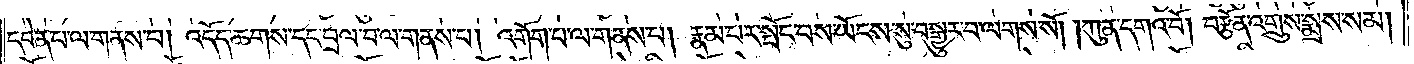དབེན་པ་ལ་གནས་པ། འདོད་ཆགས་དང་བྲལ་བ་ལ་གནས་པ། འགོག་པ་ལ་གནས་པ། རྣམ་པར་སྤོང་བས་ཡོངས་སུ་བསྒྱུར་བ་ལགས་སོ། །ཀུན་དགའ་བོ། བརྩོན་འགྲུས་སྨྲས་སམ།
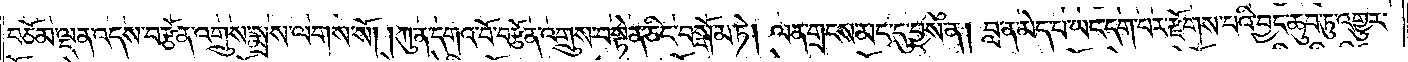བཅོམ་ལྡན་འདས་བརྩོན་འགྲུས་སྨྲས་ལགས་སོ། །ཀུན་དགའ་བོ་བརྩོན་འགྲུས་བསྟེན་ཅིང་བསྒོམ་ཏེ། ལན་གྲངས་མང་དུ་བྱས་ན། བླ་ན་མེད་པ་ཡང་དག་པར་རྫོགས་པའི་བྱང་ཆུབ་ཏུ་འགྱུར་
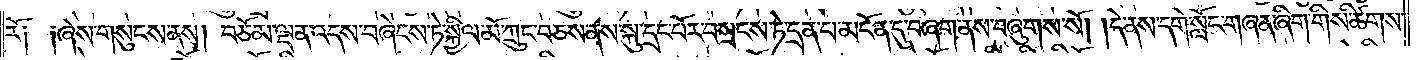རོ༑ ༑ཞེས་གསུངས་ནས། བཅོམ་ལྡན་འདས་བཞེངས་ཏེ་སྐྱིལ་མོ་ཀྲུང་བཅས་ནས་སྐུ་དྲང་པོར་བསྲངས་ཏེ་དྲན་པ་མངོན་དུ་བཞག་ནས་བཞུགས་སོ། །དེ་ནས་དགེ་སློང་གཞན་ཞིག་གིས་ཚིགས་
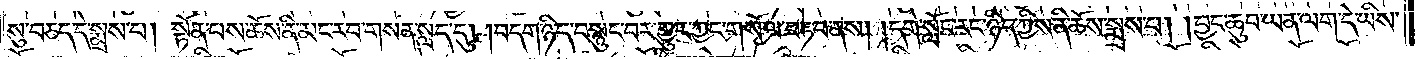སུ་བཅད་དེ་སྨྲས་པ། སྟོན་པས་ཆོས་ནི་མང་རབ་གསན་སླད་དུ། །བདག་ཉིད་བསྙུང་བར་གྱུར་ཀྱང་གསོལ་བཏབ་ནས། །དགེ་སློང་རང་ཉིད་ཀྱིས་ནི་ཆོས་སྨྲས་པ། །བྱང་ཆུབ་ཡན་ལག་དེ་ཡིས་
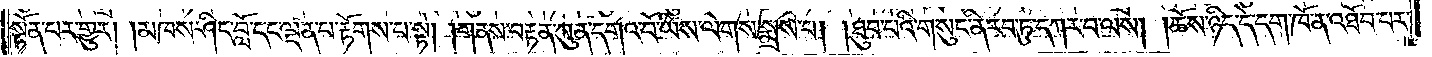སྟོན་པར་གྱུར། །མཁས་ཤིང་བློ་དང་ལྡན་པ་རྟོགས་པ་སྟེ། །གནས་བརྟན་ཀུན་དགའ་བོ་ཡིས་ལེགས་སྨྲས་པ། །ཐུབ་པའི་གསུང་ནི་རབ་ཏུ་དཀར་བ་ལས། །ཆོས་ཉིད་དེ་དག་ཁོ་ན་འཐོབ་པར་
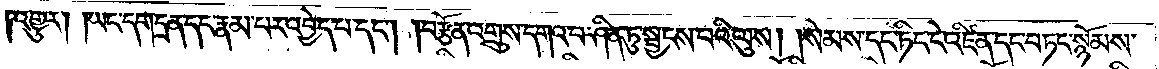འགྱུར། །ཡང་དག་དྲན་དང་རྣམ་པར་འབྱེད་པ་དང༌། །བརྩོན་འགྲུས་དགའ་བ་ཤིན་ཏུ་སྦྱངས་པའི་ལུས། །སེམས་དང་ཏིང་ངེ་འཛིན་དང་བཏང་སྙོམས་
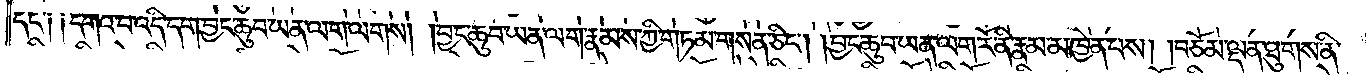དང་༑ ༑དགའ་བ་འདི་དག་བྱང་ཆུབ་ཡན་ལག་ལགས། །བྱང་ཆུབ་ཡན་ལག་རྣམས་ཀྱི་གཏམ་གསན་ཅིང༌། །བྱང་ཆུབ་ཡན་ལག་རོ་ནི་རྣམ་མཁྱེན་པས། །བཅོམ་ལྡན་ཐུགས་ནི་
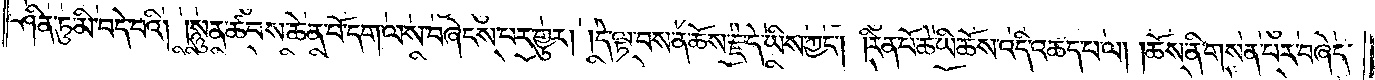ཤིན་ཏུ་མི་བདེ་བའི། །སྙུན་ཚབས་ཆེན་པོ་དག་ལས་བཞེངས་པར་གྱུར། །དེ་ལྟ་བས་ན་ཆོས་རྗེ་དེ་ཡིས་ཀྱང༌། །རིན་པོ་ཆེ་ཡི་ཆོས་འདི་འཆད་པ་ལ། །ཆོས་ནི་གསན་པར་བཞེད་
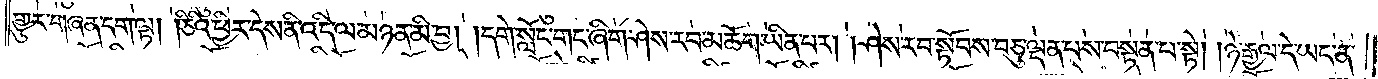གྱུར་གཞན་དག་ལྟ། །ཅིའི་ཕྱིར་དེས་ནི་འདི་ལ་མཉན་མི་བྱ། །དགེ་སློང་གང་ཞིག་ཤེས་རབ་མཆོག་ཡིན་པར། །ཤེས་རབ་སྟོབས་བཅུ་ལྡན་པས་བསྟན་པ་སྟེ། །ཉེ་རྒྱལ་དེ་ཡང་ན་
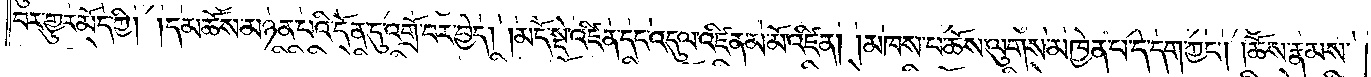བར་གྱུར་མོད་ཀྱི། །དམ་ཆོས་མཉན་པའི་དོན་དུ་འགྲོ་བར་བྱེད། །མདོ་སྡེ་འཛིན་དང་འདུལ་འཛིན་མ་མོ་འཛིན། །མཁས་པ་ཆོས་ལུགས་མཁྱེན་པ་དེ་དག་ཀྱང༌། །ཆོས་རྣམས་
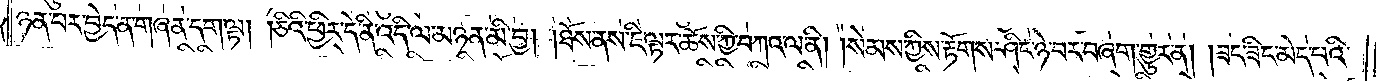ཉན་པར་བྱེད་ན་གཞན་དག་ལྟ། །ཅིའི་ཕྱིར་དེ་ནི་འདི་ལ་མཉན་མི་བྱ། །ཐོས་ནས་ཇི་ལྟར་ཆོས་ཀྱི་བཀའ་ལ་ནི། །སེམས་ཀྱིས་རྟོགས་ཤིང་ཉེ་བར་བཞག་གྱུར་ན། །ཟང་ཟིང་མེད་པའི་
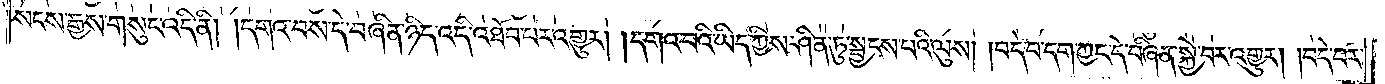སངས་རྒྱས་གསུང་འདི་ནི། །དགའ་བས་དེ་བཞིན་ཉིད་འདི་འཐོབ་པར་འགྱུར། །དགའ་བའི་ཡིད་ཀྱིས་ཤིན་ཏུ་སྦྱངས་པའི་ལུས། །བདེ་བ་དག་ཀྱང་དེ་བཞིན་སྐྱེ་བར་འགྱུར། །བདེ་བར་
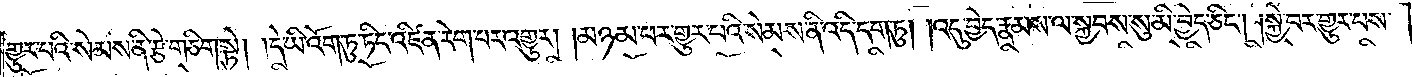གྱུར་པའི་སེམས་ནི་རྩེ་གཅིག་སྟེ། །དེ་ཡི་འོག་ཏུ་ཏིང་འཛིན་རེག་པར་འགྱུར། །མཉམ་པར་གྱུར་པའི་སེམས་ནི་འདི་དག་ཏུ། །འདུ་བྱེད་རྣམས་ལ་སྐྱབས་སུ་མི་བྱེད་ཅིང༌། །སྐྱེ་བར་གྱུར་པས་
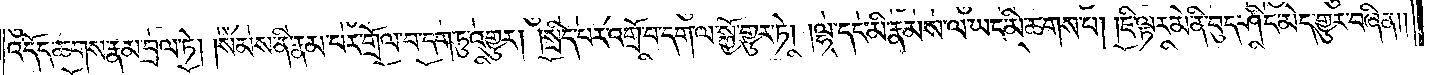འདོད་ཆགས་རྣམ་བྲལ་ཏེ། །སེམས་ནི་རྣམ་པར་གྲོལ་བ་དག་ཏུ་འགྱུར། །སྲིད་པར་འགྲོ་བ་དག་ལ་སྐྱོ་གྱུར་ཏེ། །ལྷ་དང་མི་རྣམས་ལ་ཡང་མི་ཆགས་པ། །ཇི་ལྟར་མེ་ནི་བུད་ཤིང་མེད་གྱུར་བཞིན༎
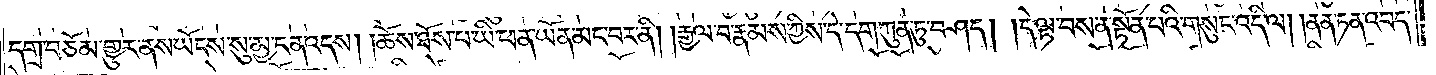དགྲ་བཅོམ་གྱུར་ནས་ཡོངས་སུ་མྱ་ངན་འདས། །ཆོས་ཐོས་པ་ཡི་ཕན་ཡོན་མང་བར་ནི། །རྒྱལ་བ་རྣམས་ཀྱིས་དེ་དག་ཀུན་ཏུ་བཤད། །དེ་ལྟ་བས་ན་སྟོན་པའི་གསུང་འདི་ལ། །ནན་ཏན་འབད་
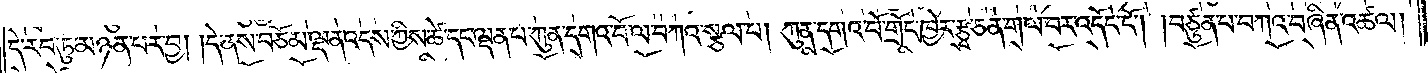དེ་རབ་ཏུ་མཉན་པར་བྱ། །དེ་ནས་བཅོམ་ལྡན་འདས་ཀྱིས་ཚེ་དང་ལྡན་པ་ཀུན་དགའ་བོ་ལ་བཀའ་སྩལ་པ། ཀུན་དགའ་བོ་གྲོང་ཁྱེར་རྩྭ་ཅན་ག་ལ་བར་འདོང་ངོ༌། །བཙུན་པ་བཀའ་བཞིན་འཚལ།
